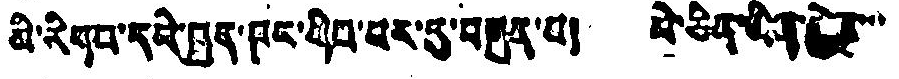མི་རིགས་དཔེ་ཁྲུན་ཁང་གིས་བར་དུ་བསྐྲུན་པ། པེ་ཅིན་ཤིན་བེ་་
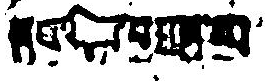སབ་ས་
